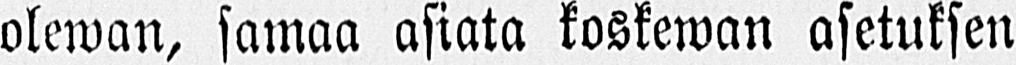olewan, samaa asiata koskewan asetuksen
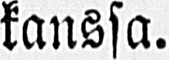kanssa.
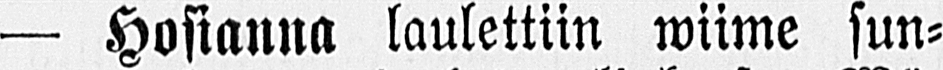— Hosianna laulettiin wiime sun-
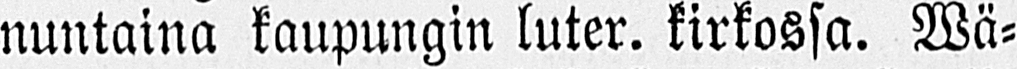nuntaina kaupungin luter. kirkossa. Wä-
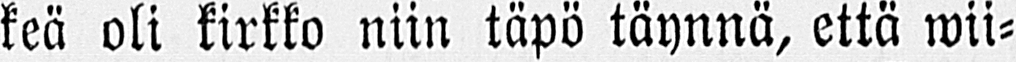keä oli kirkko niin täpö täynnä, että wii-
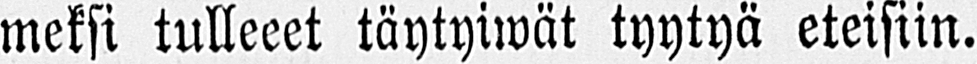meksi tulleeet täytyiwät tyytyä eteisiin.
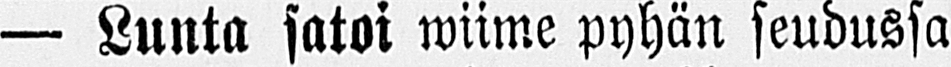— Lunta satoi wiime pyhän seudussa
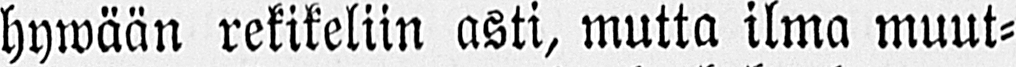hywään rekikeliin asti, mutta ilma muut-
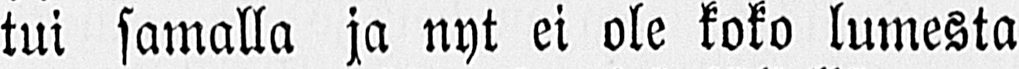tui samalla ja nyt ei ole koko lumesta
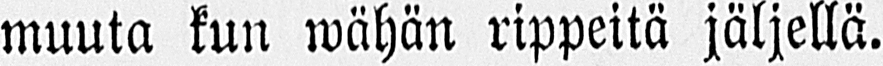muuta kun wähän rippeitä jäljellä.
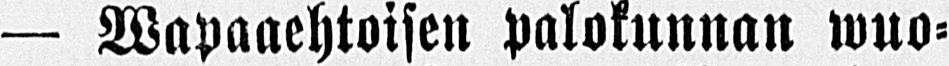— Wapaaehtoisen palokunnan wuo-
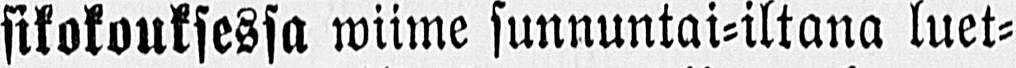sikokouksessa wiime sunnuntai-iltana luet-
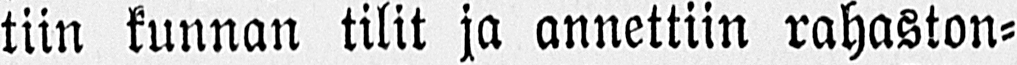tiin kunnan tilit ja annettiin rahaston-
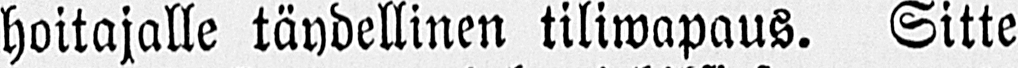hoitajalle täydellinen tiliwapaus. Sitte
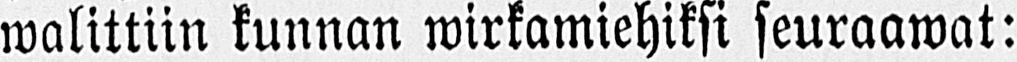walittiin kunnan wirkamiehiksi seuraawat:
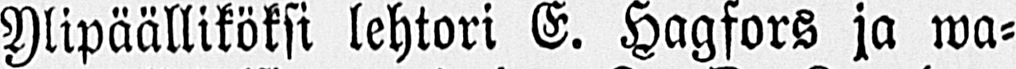Ylipäälliköksi lehtori E. Hagfors ja wa-
